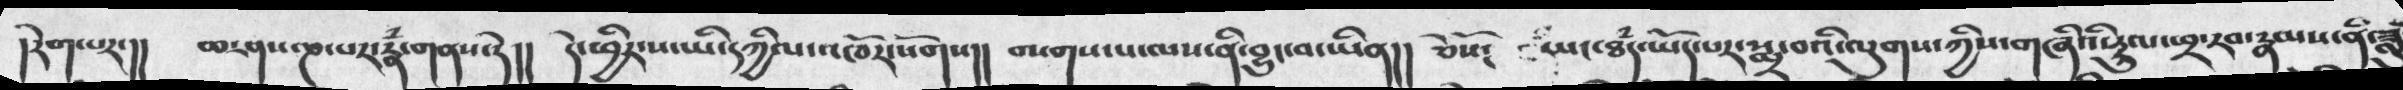།རེག་པར་།།  ཆ་ཤད་ཎ་པར་རྣཾ་གནས་རེ།།  དེ་ཕྱིར་ས་ཡི་དཀྱིལ་འཁོར་སོགས།།  བསགས་པ་ལས་ནི་བྱུང་བ་ཡིན།།  ཅེསོ༴  ཐཾད་ཡང་ཐཾད་ཡོད་པར་སྨྲ་བའི་ལུགས་ཀྱིས་གཞིའི་རྡུལ་ཕྲ་རབ་རྣམས་ནི་ཟླ་
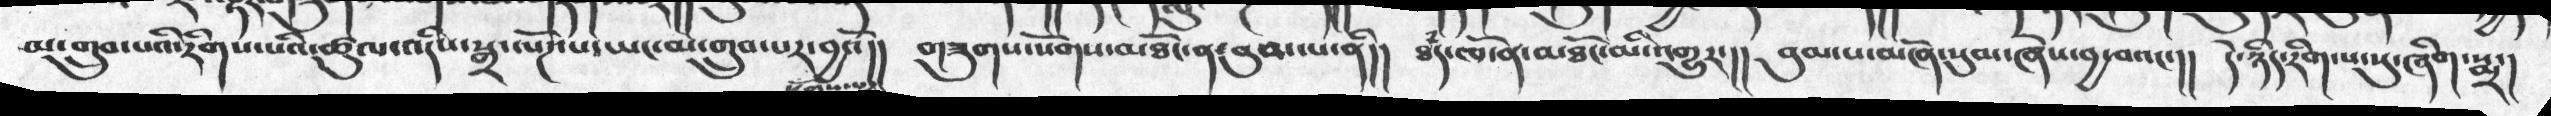མ་གྲུག་པའི་རིགས་པའི་ཚུལ་འདིས་སྒྲ་ལོཌ་པ་ཡང་མི་གྲུབ་པར་བྱའོ།།  གཟུགས་སོགས་མཐོང་ན་བུམ་པ་ནི།།  ཐཾད་ཁོ་ན་མཐོང་མི་འགྱུར་།།  བུམ་པ་མངོན་སུམ་ཞེས་བྱ་བའང་།།  དེ་ཉིད་རིག་པ་སུ་ཞིག་སྨྲ་།
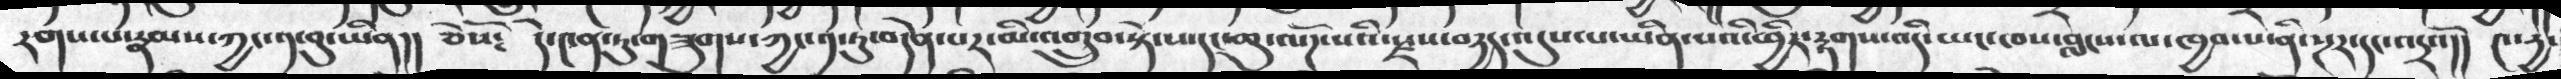རགས་པ་རྣམས་ཀྱང་༡་བུ་ཡིན།།   ཅེསོ༴    དེ་༤ན་ཏུ་གཟུགས་ཀྱང་༡་ཏུ་བདེན་པར་མི་འགྲུབ་སྟེ་ས་དང་ཆུ་ལོཌ་པའི་སྫས་བདྱད་འདུས་པ་ཡིན་པའི་ཕྱིར་རྟགས་འདི་ཡང་ཁས་བླངས་ལ་ཁྱབ་པ་ནི་སྔར་དང་འདྲའོ།།   ༤་དྱ་
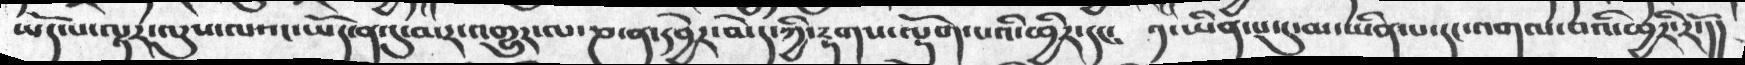ཡོད་པ་ལྟར་ལུས་ལའང་ཡོད་ན་དུ་མར་འགྱུར་ལ་ཎ་ན་དབྱེར་མེད་ཀྱི་རྟགས་ལྡོག་པའི་ཕྱིར་དང༴   ༡་ཡིན་པ་དུ་མ་ཡིན་པ་དང་འགལ་བའི་ཕྱིར་རོ་།།
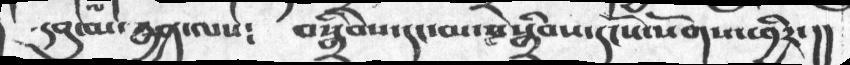དབུ་མ་རྒྱན་ལས༴  བསྒྲིབས་དང་མ་བསྒྲིབས་དངོས་སོགས་ཕྱིར་།།
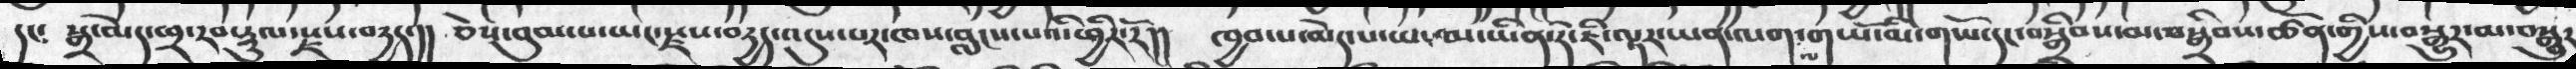དང༴  སྒྲ་མེད་ཕྲ་རབ་རྡུལ་རྫས་བདྱད་།།  ཅེས་བུམ་པ་ཡང་རྫས་བརྱད་འདུས་པར་ཁས་བླངས་པའི་ཕྱིར་རོ།།  ཁྱབ་པ་མེད་པ་ཡང་མ་ཡིན་རོ་ཇི་ལྟར་ཡན་ལག་ལ་གཡོ་མི་གཡོ་དང་བསྒྲིབས་མ་བསྒྲིབས་ཚོན་གྱིས་བསྒྱུར་མ་བསྒྱུར
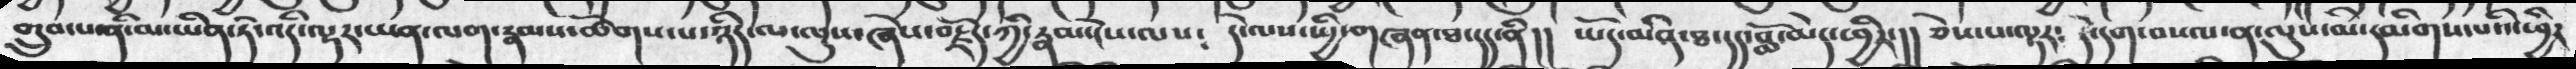གྲུབ་པཔ་ནི་མ་ཡིན་ཏེ་འདི་ལྟར་ཡན་ལག་རྣམས་ཚོགས་པ་ཉིད་ལ་ལུས་ཞེས་བརྗོད་ཀྱི་རྣམ་ངེས་ལས༴   ཡོད་མིན་ཐ་དད་བློ་མེད་ཕྱིར་།།  ཅེས་པ་ལྟར༴   དེ་དག་བསལ་ན་ལུས་མི་དམིགས་པའི་ཕྱིར
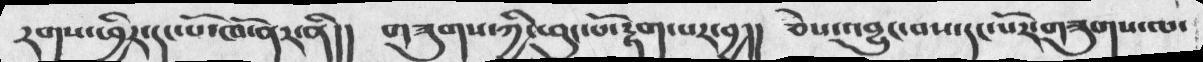རགས་ཕྱིར་དང་པོ་ཁོ་ནར་ནི།།    གཟུགས་ཀྱི་ཕུང་པོ་རྟག་པར་བྱ།།    ཅེས་འབྱུང་བས་དང་པོར་གཟུགས་ལ་
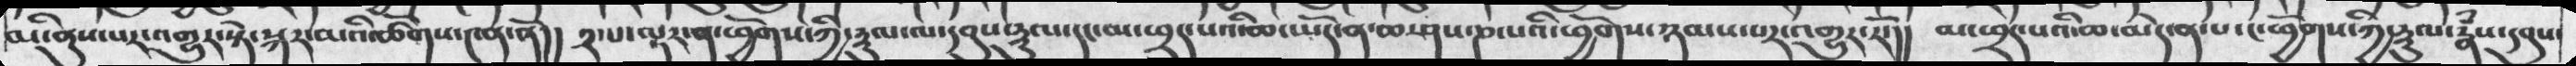མི་ནུས་པར་འགྱུར་སྟེ་སྐར་མའི་ཚོགས་༤ན་ནོ།།  ༢་པ་ལྟར་ན་ཕྱོགས་ཀྱི་རྡུལ་ལ་དབུས་རྡུལ་དང་མ་ཕྲད་པའི་ཆ་ཡོད་ན་ཆ་ཤས་ཎ་པའི་ཕྱོགས་ཉམས་པར་འགྱུར་རོ་།།     མ་ཕྲད་པའི་ཆ་མེད་ན་པ་ང་ཕྱོགས་ཀྱི་རྡུལ་རྣྃས་དབུས་
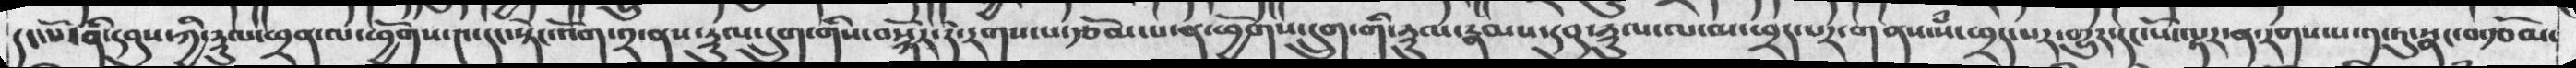དང་པོ་ནི་དབུས་ཀྱི་རྡུལ་ཕྲན་ལ་ཕྱོགས་༤་དང་སྟེང་འོག་༢་ནས་རྡུལ་དྲུག་གིས་བསྐོར་ཏེ་རགས་པ་རྩོམ་པ་ན་ཕྱོགས་དྲུག་གི་རྡུལ་རྣམས་དབུ་རྡུལ་ལ་མ་ཕྲད་པར་གནས་སཾ་ཕྲད་པར་གྱུར་དང་པོ་ལྟར་ན་རགས་པ་༡་ཏུ་སྣང་བརྩོམ་
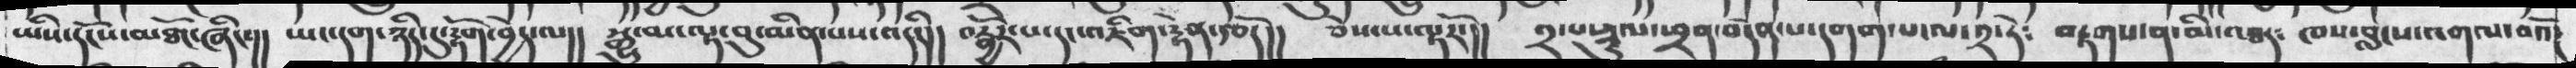ཡིས་དངོས་མཐོང་ཞིང་།། ཡང་དག་ཉིད་དུ་རྟོག་བྱེད་ལ།། སྒྱུ་མ་ལྟ་བུ་མིན་པས་འདི་།། བརྒྱོར་པ་དང་འཇིག་རྟེན་རྩོད།། ཅེས་པ་ལྟརོ་།། ༢་པ་རྡུལ་ཕྲན་བདེན་པ་དགག་པ་ལ་༢་ཏེ༴ བརྟགས་ན་མི་འཐད༴ ཁས་བླངས་འགལ་བའོ།
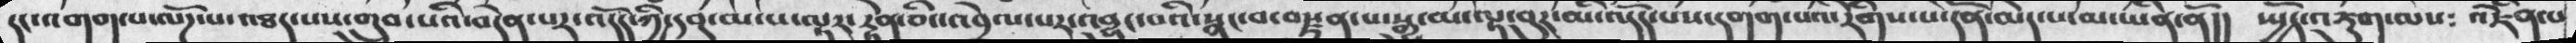དང་འགག་པ་ལོཌ་པ་འཐད་པས་གྲུབ་པའི་བདེན་པར་འདོད་ཀྱི་དབུ་མ་པ་ལྟར་རྟེན་ཅིང་འབྲེལ་པར་འབྱུང་པའི་སྣང་བ་བསྫུན་པ་སྒྱུ་མ་ལྟ་བུར་མི་འདོད་པས་དགག་པའི་རིགས་པ་དོན་མེད་པ་མ་ཡིན་ནོ།། སྤྱོད་འཇུག་ལས༴ འཇིེན་པ
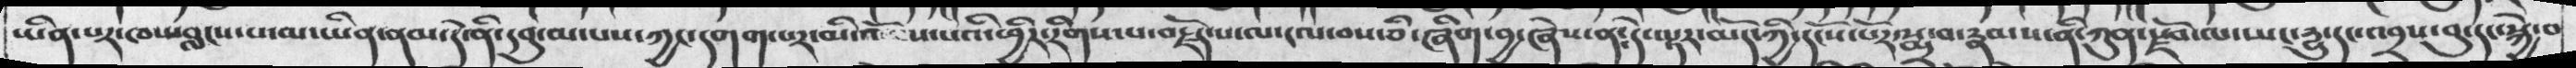ཡིན་པར་ཁས་བླངས་པ་མ་ཡིན་ནམ་དེ་ནི་དབུ་མ་པས་ཀྱང་དགག་པར་མི་འོངས་པའི་ཕྱིར་རིགས་པ་བརྗོད་པ་ལ་ངལ་བས་ཅི་ཞིག་བྱ་ཞེས་ན༴དེ་ལྟར་མོད་ཀྱི་དངོས་པོར་སྨྲ་བ་རྣམས་ནི་ཀུན་རྫོབ་ལ་ཡང་དྱུ་དང་འབྲས་བུ་དང་སྐྱེ་བ
